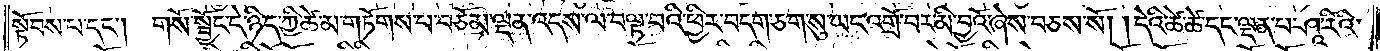སྟོབས་པ་དང༌། གསོ་སྦྱོང་དེ་ཉིད་ཀྱི་ཚེ་མ་གཏོགས་པ་བཅོམ་ལྡན་འདས་ལ་བལྟ་བའི་ཕྱིར་བདག་ཅག་སུ་ཡང་འགྲོ་བར་མི་བྱའོ་ཞེས་བཅས་སོ། །དེའི་ཚེ་ཚེ་དང་ལྡན་པ་ཤཱ་རིའི་
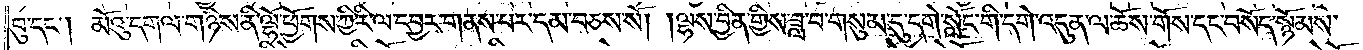བུ་དང༌། མོའུ་དགལ་གཉིས་ནི་ལྷོ་ཕྱོགས་ཀྱི་རི་ལ་དབྱར་གནས་པར་དམ་བཅས་སོ། །ལྷས་སྦྱིན་གྱིས་ཟླ་བ་གསུམ་དུ་དགེ་སློང་གི་དགེ་འདུན་ལ་ཆོས་གོས་དང་བསོད་སྙོམས་
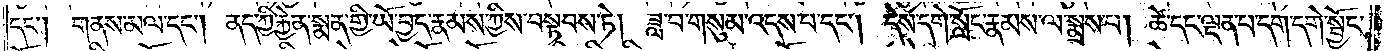དང༌། གནས་མལ་དང༌། ནད་ཀྱི་རྐྱེན་སྨན་གྱི་ཡོ་བྱད་རྣམས་ཀྱིས་བསྟབས་ཏེ། ཟླ་བ་གསུམ་འདས་པ་དང༌། དེས་དགེ་སློང་རྣམས་ལ་སྨྲས་པ། ཚེ་དང་ལྡན་པ་དག་དགེ་སྦྱོང་
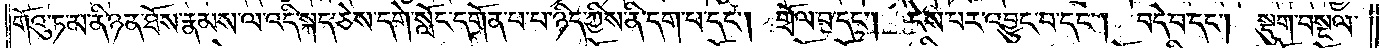གོའུ་ཏ་མ་ནི་ཉན་ཐོས་རྣམས་ལ་འདི་སྐད་ཅེས་དགེ་སློང་དགོན་པ་པ་ཉིད་ཀྱིས་ནི་དག་པ་དང༌། གྲོལ་བ་དང༌། ངེས་པར་འབྱུང་བ་དང༌། བདེ་བ་དང༌། སྡུག་བསྔལ་
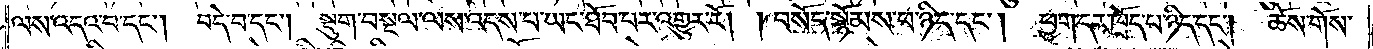ལས་འདའ་བ་དང༌། བདེ་བ་དང༌། སྡུག་བསྔལ་ལས་འདས་པ་ཡང་ཐོབ་པར་འགྱུར་རོ། །བསོད་སྙོམས་པ་ཉིད་དང༌། ཕྱག་དར་ཁྲོད་པ་ཉིད་དང༌།   ཆོས་གོས་
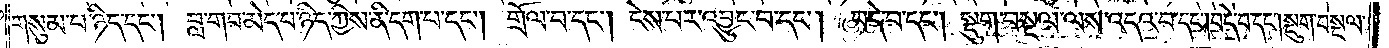གསུམ་པ་ཉིད་དང༌། བླ་གབ་མེད་པ་ཉིད་ཀྱིས་ནི་དག་པ་དང༌། གྲོལ་བ་དང༌། ངེས་པར་འབྱུང་བ་དང༌། བདེ་བ་དང༌། སྡུག་བསྔལ་ལས་འདའ་བ་དང༌། བདེ་བ་དང༌། སྡུག་བསྔལ་
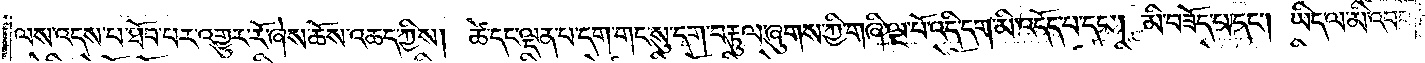ལས་འདས་པ་ཐོབ་པར་འགྱུར་རོ་ཞེས་ཆོས་འཆད་ཀྱིས། ཚེ་དང་ལྡན་པ་དག་གང་སུ་དག་བརྟུལ་ཞུགས་ཀྱི་གཞི་ལྔ་པོ་འདི་དག་མི་འདོད་པ་དང༌། མི་བཟོད་པ་དང༌། ཡིད་ལ་མི་འབབ་
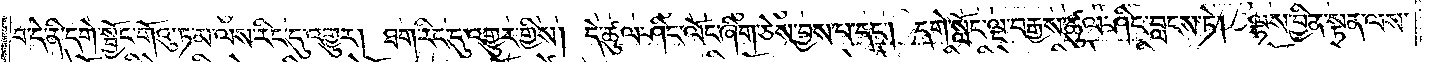བ་དེ་ནི་དགེ་སྦྱོང་གོའུ་ཏ་མ་ལས་རིང་དུ་འགྱུར། ཐག་རིང་དུ་འགྱུར་གྱིས། དེ་ཚུལ་ཤིང་ལོང་ཞིག་ཅེས་བྱས་པ་དང༌། དགེ་སློང་ལྔ་བརྒྱས་ཚུལ་ཤིང་བླངས་ཏེ། ལྷས་བྱིན་སྟན་ལས་
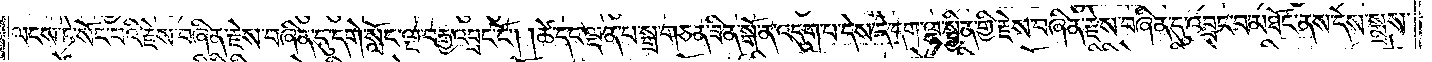ལངས་ཏེ་སོང་བའི་རྗེས་བཞིན་རྗེས་བཞིན་དུ་དགེ་སློང་ལྔ་བརྒྱ་འབྲང་ངོ༌། །ཚེ་དང་ལྡན་པ་སྒྲ་གཅན་ཟིན་སྒོ་ན་འདུག་པ་དེས་དེ་དག་ལྷ་སྦྱིན་གྱི་རྗེས་བཞིན་རྗེས་བཞིན་དུ་འབྲང་བ་མཐོང་ནས་དེས་སྨྲས་
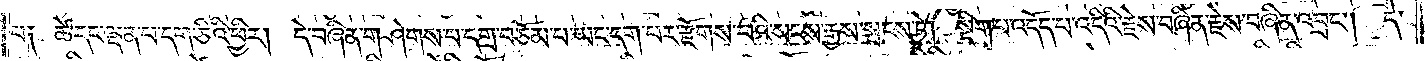པ༑ ཚེ་དང་ལྡན་པ་དག་ཅིའི་ཕྱིར། དེ་བཞིན་གཤེགས་པ་དགྲ་བཅོམ་པ་ཡང་དག་པར་རྫོགས་པའི་སངས་རྒྱས་སྤངས་ཏེ། སྡིག་པ་འདོད་པ་འདིའི་རྗེས་བཞིན་རྗེས་བཞིན་འབྲང༌། དེ་
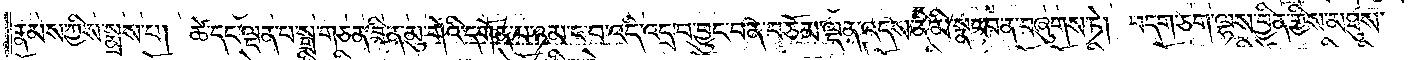རྣམས་ཀྱིས་སྨྲས་པ། ཚེ་དང་ལྡན་པ་སྒྲ་གཅན་ཟིན་མུ་གེའི་དགོན་པ་ཉམ་ང་བ་འདི་འདྲ་བ་བྱུང་བ་ན་བཅོམ་ལྡན་འདས་ནི་མི་སྣང་བ་ན་བཞུགས་ཏེ། བདག་ཅག་ལྷས་བྱིན་གྱིས་མཐུས་
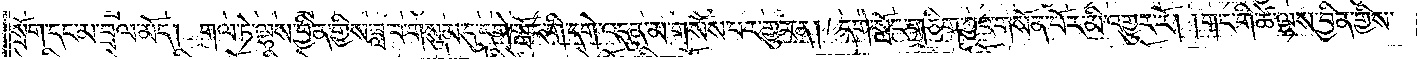སྲོག་དང་མ་བྲལ་མོད། གལ་ཏེ་ལྷས་བྱིན་གྱིས་ཟླ་བ་གསུམ་དུ་དགེ་སློང་གི་དགེ་འདུན་མ་གསོས་པར་གྱུར་ན། དགེ་སློང་གཅིག་ཀྱང་གསོན་པོར་མི་འགྱུར་རོ། །གང་གི་ཚེ་ལྷས་བྱིན་གྱིས་
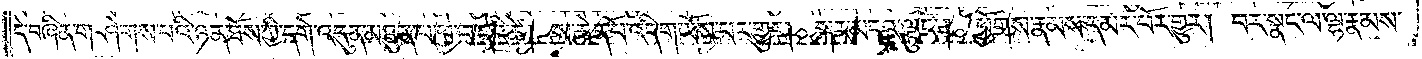དེ་བཞིན་གཤེགས་པའི་ཉན་ཐོས་ཀྱི་དགེ་འདུན་མཐུན་པ་ཕྱེ་བ་དེའི་ཚེ། ས་ཆེན་པོ་འདི་གཡོས་པར་གྱུར། སྐར་མདའ་ལྟུང༌། ཕྱོགས་རྣམས་དམར་པོར་གྱུར། བར་སྣང་ལ་ལྷ་རྣམས་
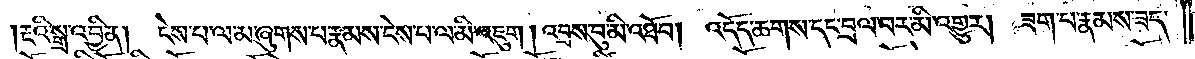།རྔའི་སྒྲ་འབྱིན། ངེས་པ་ལ་མ་ཞུགས་པ་རྣམས་ངེས་པ་ལ་མི་འཇུག །འབྲས་བུ་མི་འཐོབ། འདོད་ཆགས་དང་བྲལ་བར་མི་འགྱུར། ཟག་པ་རྣམས་ཟད་
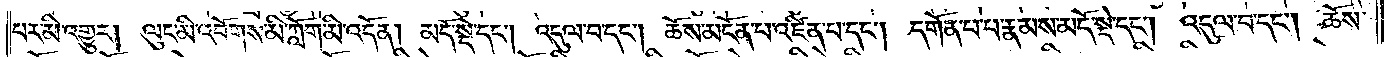པར་མི་འགྱུར། ལུང་མི་འབོགས་མི་ཀློག་མི་འདོན། མདོ་སྡེ་དང༌། འདུལ་བ་དང༌། ཆོས་མངོན་པ་འཛིན་པ་དང༌། དགོན་པ་པ་རྣམས་མདོ་སྡེ་དང༌། འདུལ་བ་དང༌། ཆོས་
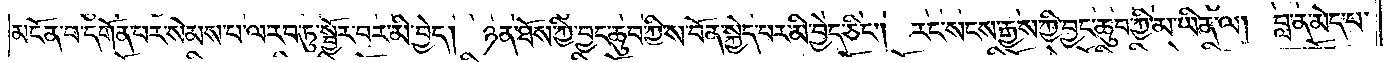མངོན་པ་དགོན་པར་སེམས་པ་ལ་རབ་ཏུ་སྦྱོར་བར་མི་བྱེད། ཉན་ཐོས་ཀྱི་བྱང་ཆུབ་ཀྱི་ས་བོན་སྐྱེད་པར་མི་བྱེད་ཅིང༌། རང་སངས་རྒྱས་ཀྱི་བྱང་ཆུབ་ཀྱི་མ་ཡིན་ལ། བླ་ན་མེད་པ་
